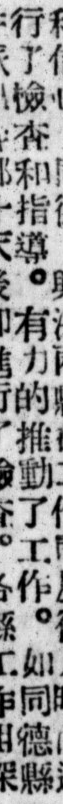行了檢查和指導。有力的推動了工作。如同德縣
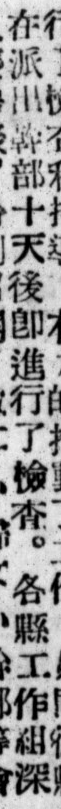在派處幹部十天後卽進行了檢查。各縣工作組深
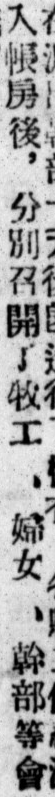入帳房後，分別召開了牧工 、婦女 、幹部等會
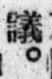議。
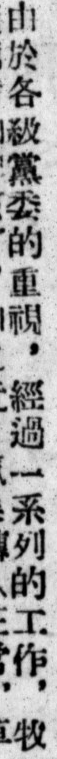由於各級黨委的重視，經過一系列的工作，牧
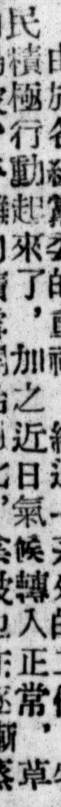民積極行動起來了，加之近日氣候轉入正常，草
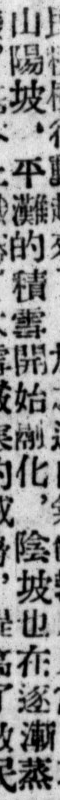山陽坡，平灘的積雪開始融化，陰坡也在逐潮蒸
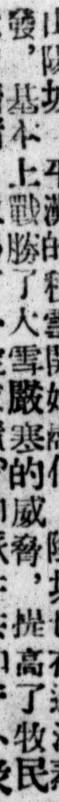發，基本上戰勝了大雪嚴寒的威脅，提高了牧民
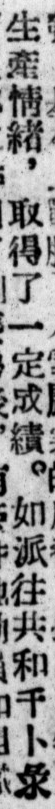生產情緒，取得了一定成績。如派往共和千卜彔
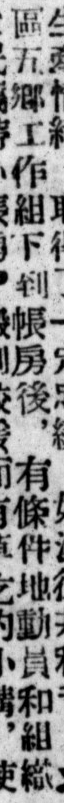區五鄉工作組下到帳房後，有條件地動員和組織
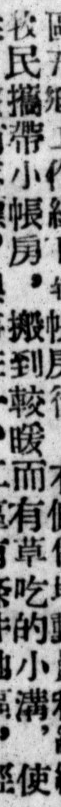牧民攜帶小帳房，搬到較暖而有草吃的小溝，使
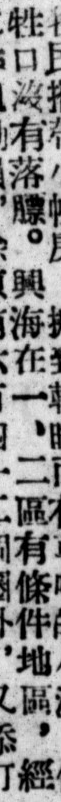牲口沒有落膘。興海在一、二區有條件地區，經
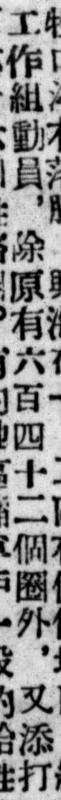工作組動員，除原有六百四十二個圈外，又添打
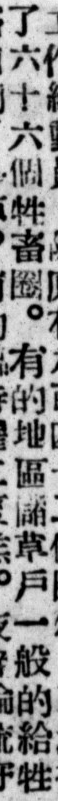了六十六個牲畜圈。有的地區儲草戶一般的給牲
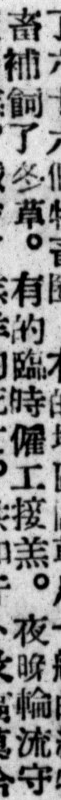畜補飼了冬草。有的臨時僱工接羔。夜晚輪流守
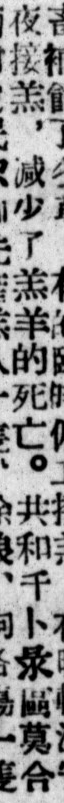夜接羔，減少了羔羊的死亡。共和千卜彔區莫合
